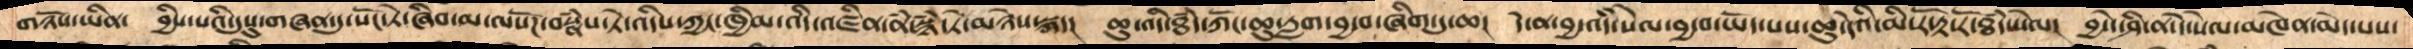གཉོས་ཡིན་    བྱིས་པའི་དུསུ་གཞན་དུ་སོང་ཏེ་ཞིབ་མ་ལསོཌ་བསྣཾས་ཏེ་འདིས་ཀྱང་ཁྱིམ་འདི་འཛིན་ནཾ་སྙཾ་ཏེ་མཉེས་སྐད།  ཆུ་འདི་ཐཾད་ཀོང་ཆུ་རླག་བྱ་བ་ཞིག་དུ་ཆ།  དེ་ན་བྱ་འདི་སེལ་བྱ་བ་ཡོད་པས་ཆུ་དེའི་མི་རོ་རྟ་རོ་ཐཾད་སེལ།   བྱ་དེ་ཤི་ན་དེ་སེལ་མཁེན་མེད་པས་
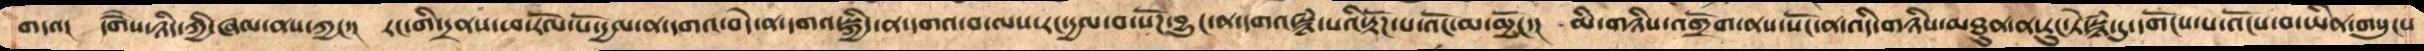གདའ།  དགཻས་ཉིད་ཀྱི་ཞལ་ནས་ཀྱང་།  རང་གི་དྲནས་ཕ་རོལ་པོ་དྱལ་ན་དགའ་བདེ་ན་དགའ་སྐྱིད་ན་དགའ་བ་ལས་རང་དྱལ་བ་སོཌ་བྱུང་ན་དགའ་སྙཾ་པའི་རྟོཌ་པ་འོང་མ་མྱོང་།  མི་གཉིས་འགྲོག་ནས་སོང་ན་འདི་གཉིས་མཐུན་ན་རུང་ཏེ་སྙཾ་དུ་དགོངས་པ་འོངས་བ་ཡིན་གསུངས
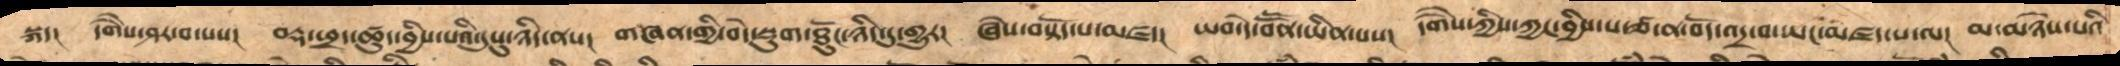སྐད།   དགཻས་ཤར་བ་པས།  བརྡ་ཕྲད་ཚུད་བྱིས་པའི་དུསུ་ཉིད་ནས།  གཞན་གྱི་བདེ་སྡུག་ཐོུང་ཉིད་དུ་གྱུར།  ཞེས་བསྟོད་པ་མཛད།  ཡབ་དེ་བཽན་ཡིན་པས།  དགཻས་ཀྱིས་ཀྱང་བྱིས་པ་ཙ་ན་བོད་འདྲ་བ་ཡང་མཛད་པ་ལ།  མ་མཉེས་པའི
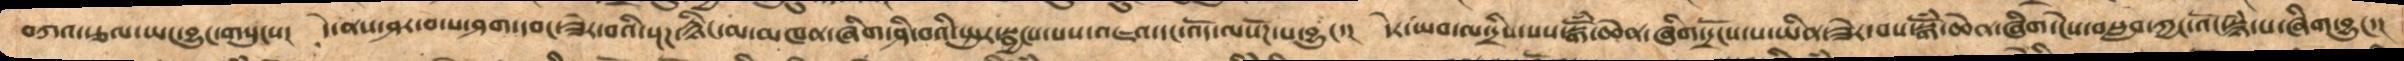བཀའ་རྩལ་ཡང་བྱུང་གསུངས།  དེ་ནས་ཤར་བ་པ་ཤག་དབང་ཟེར་བའི་སྔཌ་རྙིང་མ་མཁན་ཞིག་ཤི་བའི་སྤུར་སྦྱངས་པས་འཇའ་དང་འོད་ལསོཌ་པ་བྱུང་།   དེར་ཡབ་ལ་དྲིས་པས་སྒོཾ་ཆེན་ཞིག་དྲོངས་པ་ཡིན་ཟེར་བས་སྒོཾ་ཆེན་ཞིག་ངེས་བསླབ་ཀྱང་འོང་སྙཾ་པ་ཞིག་བྱུང་།
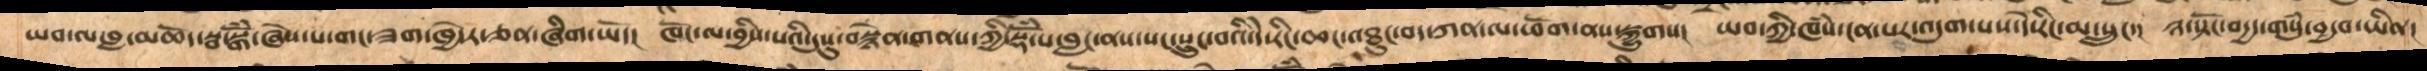ཡབ་ལ་བླ་མཆོད་སྦ་སྒོཾ་ཞེས་པ་གང་ཟག་ཁྱེདར་ཅན་ཞིག་ཡོད།   ཁོང་ལ་བྱིས་པའི་དུསུ་བསྙེན་གནས་ཀྱི་སྡོཾ་པ་བླང་ནས་སང་སྲུང་བའི་དེ་རིང་ཆང་འཐུང་བ་དཀའ་ལ་ཕོག་ནས་སྐྱུགས།  ཡབ་ཀྱི་ཁཾས་ངན་པར་འདུག་པས་དེ་རིང་མ་སྲུང་།  ཉ་སྟོང་བདྱད་གསུཾ་བྱ་བ་ཡིན་
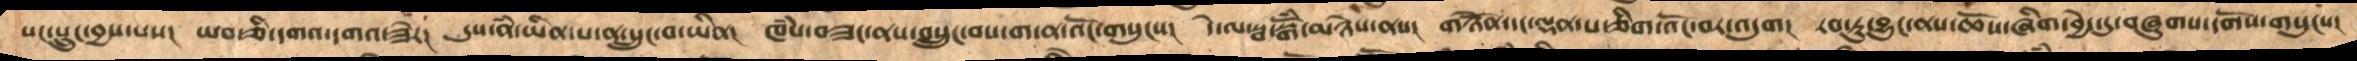སང་སྲུང་བྱས་པས།   ཡབ་ཅི་དགའ་དགའ་ཟེར།  དུས་ནཾ་ཡིན་པ་ན་སྲུང་བ་ཡིན།  ཁཾས་བཟང་ནས་བསྲུང་བས་གདན་འོང་གསུངས།  དེ་ལ་སྦ་སྒོཾ་མཉེས་ནས།  གཉེནོ་དང་ལྡན་པ་ཅིག་འོང་བར་འདུག།  རབ་ཏུ་བྱུང་ནས་ཆོས་ཞིག་བྱེད་དུ་བཞུགས་དགོས་གསུངས།
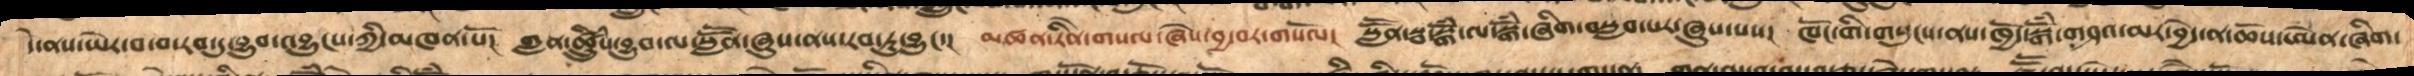དེ་ནས་ཡེར་བ་བ་རབ་དུ་བྱུབ་འབྱུངས་ཀྱི་མཁན་པོ།  གླན་ཚྱིུསཾ་བྱུབ་ལ་སླཽན་ཞུས་ནས་རབ་ཏུ་བྱུང་།  མཚན་རིནེ་གསལ་ཞེས་བྱ་བར་གསོལ།   སླཽན་སྦ་སྒོཾ་ལ་སྒོཾ་ཞིག་བསླབ་པར་ཞུས་པས།  ཁོང་གི་གསུངས་ནས་ཁྱོད་སྒོཾ་གཤའ་མར་བྱེད་ན་ཆོས་ཨེན་ཞིག་
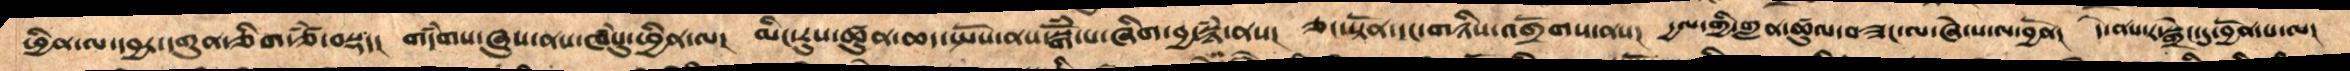ཕྱིན་ལ་དབྱར་དགུན་ཅིག་ཙཾ་བསྡད།    གདཾགས་ཞུས་ནས་ཁཾསུ་ཕྱིན་ལ།  མིང་རུས་ཚུན་ཆད་སྤོས་ནས་སྒོཾ་པ་ཞིག་བྱ་སྙཾ་ནས།  ཅང་སྟོན་དང་གཉིས་འགྲོགས་ནས།   དྱལ་གྱི་གླན་ཚུལ་བཟང་ལ་ཞེ་ས་ལ་བྱོན།   དེ་ནས་ར་སྒྲེང་དུ་བྱོན་པ་ལ།
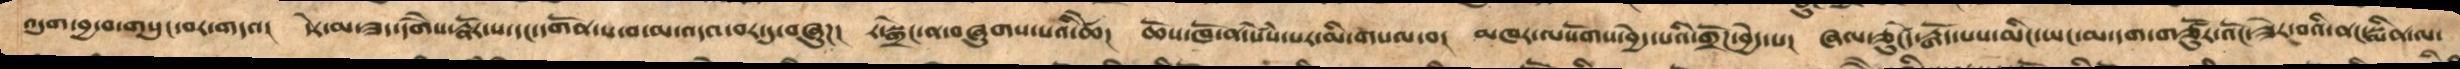འདུག་བྱ་བ་གསུང་བར་གདའ།  དེར་མ་ཟད་དགཻས་རྣོར་པ་དང་དགོན་པ་བ་མ་འདའ་བར་དུ་བཞུཌ།   ར་སྒྲེང་ན་བཞུགས་པའི་ཚེ།  ཆོས་ཁོ་ན་སེཾས་པར་མི་གསལ་བ།  མཁར་ལསོགས་བྱེད་པའི་གྲོཌ་བྱེད་པ།  ཞལ་ཅུངཟེད་རྒོད་པས་མིང་ཡང་མ་དག་གཙོུར་འོང་ཟེར་བའི་ནང་སྨིན་ལ་
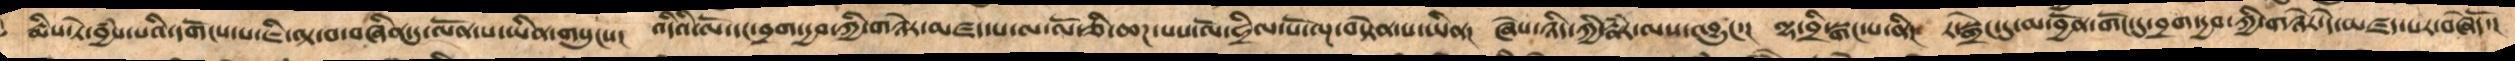རྨིས་ཏེ་བྱཾས་པའི་དགོངས་པ་ཇི་ལྟ་བ་བཞིན་དུ་ལོན་པ་ཡིན་གསུངས།   འདིའི་ལོ་དང་བྲག་དྱབ་ཀྱི་གཉེར་མཛད་པ་ལ་ལོ་ཅི་ཆཌ་པས་ལོ་ཧྲིལ་པོ་ལྔ་བསྟེན་པ་ཡིན།  ཞེས་ཉིད་ཀྱི་རྣཾར་ལས་འབྱུང་།   ལྷ་བྲི་སྒང་པ་ནི།  ར་སྒྲེང་དུ་མ་བྱོན་གོང་དུ་བྲག་དྱབ་ཀྱི་གཉེར་དེ་མཛད་པར་བཞེདོ་།
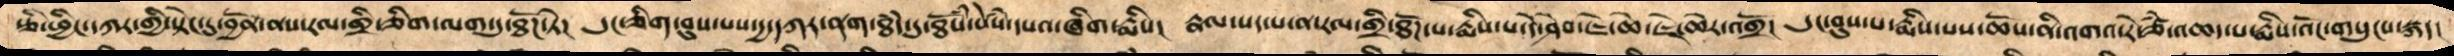རྩེ་ཕྱིང་དཀར་གྱི་སྟེང་དུ་བྱོན་ནས་རལ་གྲི་ཅིག་ལག་དུ་ཐོཌ་ཏེ།   དུང་ཅིག་བུས་པས་དྱ་དཀར་ནག་ཐཾད་དུ་ཐོསཾ་སེསཾདཔའ་་ཞིག་རྨིས།  རྣལ་སད་པ་ན་རལ་གྲི་ཐོཌ་པ་རྨིས་པ་དེ་ཤེབ་ཇེ་ཆེ་ཇེ་ཆེར་འགྲོ།   དུང་བུས་པ་རྨིས་པས་ཆོས་ནི་འགའ་རེ་ཙཾ་འཆད་པ་རྨིས་འོང་གསུངས་སྐད།
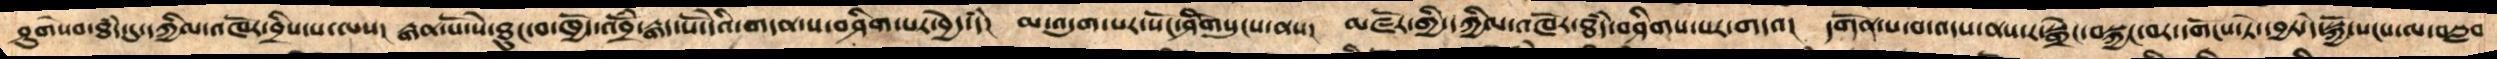ཤུགསེབ་ཐཾད་དུ་དཀྱིལ་འཁོར་བྲིས་པ་ལས།  རྒན་པོ་སེ་ཐུང་བ་ཁྱོད་འབྲོཾ་རྒད་པོ་དེའི་གདན་ས་བཤིག་པར་བྱེད་དཾ།  མ་འདུག་པར་སོང་ཤིགོསུངས་ནས།  མཛོར་གྱི་དཀྱིལ་འཁོར་ཐཾད་བཤིགས་པར་གདའ།   དགོན་པ་བ་འདས་ནས་ར་སྒྲེང་བསྐྱང་བར་དགོངས་ཏེ་དབྱར་དེ་སྐྱོ་སངས་ལ་བསླབ་
